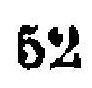52
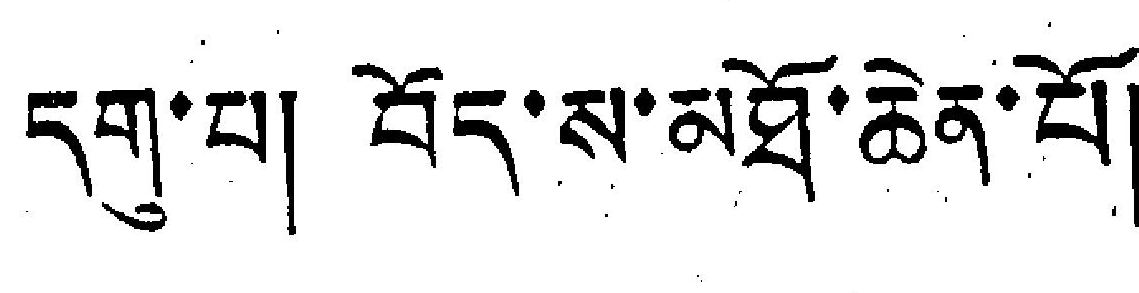དག་པ། བོད་ས་མཐོ་ཆེན་པོ།
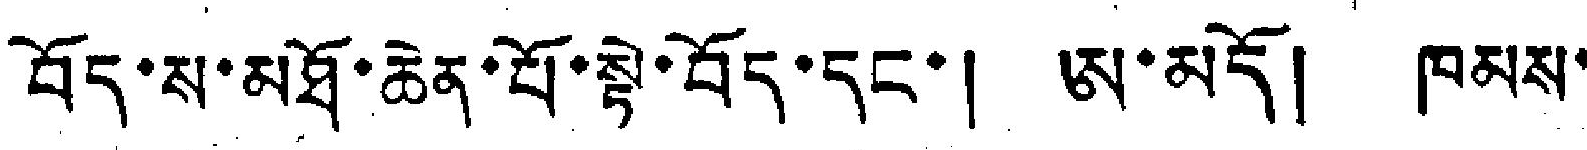བོད་ས་མཐོ་ཆེན་པོ་སྟེ་བོད་དང་། ཨ་མདོ། ཁམས་
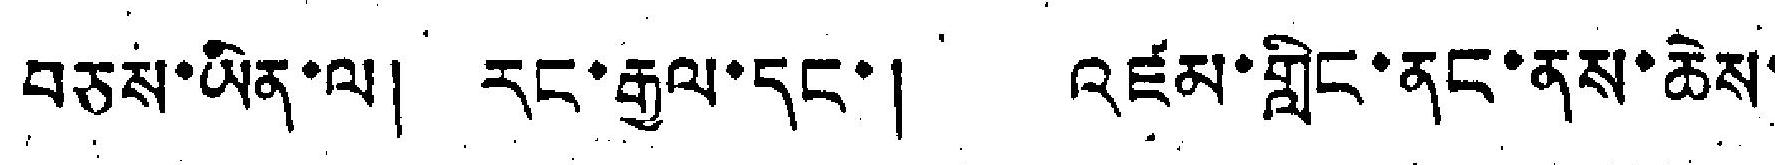བཅས་ཡིན་ལ། རང་རྒྱལ་དང་། འཛམ་གླིང་ནང་ནས་ཆེས་
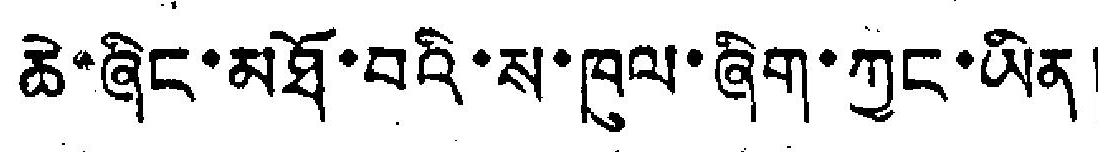ཆེ་ཞིང་མཐོ་བའི་ས་ཁུལ་ཞིག་ཀྱང་ཡིན།
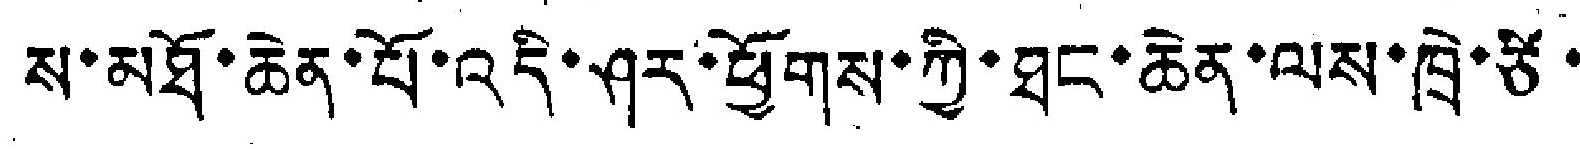ས་མཐོ་ཆེན་པོ་འདི་ཤར་ཕྱོགས་ཀྱི་ཐང་ཆེན་ལས་ཁྲེ་ཙི་
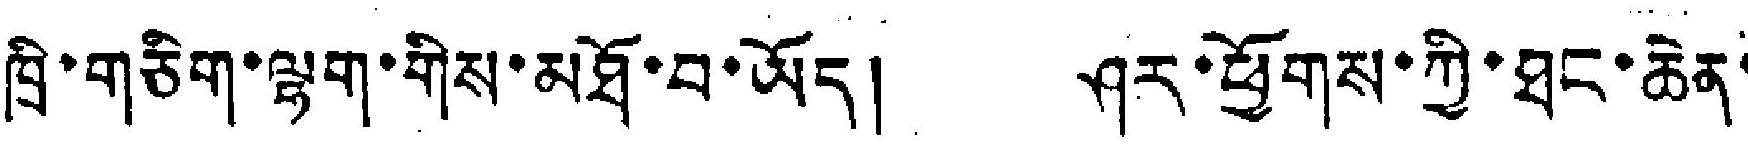ཁྲི་གཅིག་ལྷག་གིས་མཐོ་བ་ཡོད། ཤར་ཕྱོགས་ཀྱི་ཐང་ཆེན་
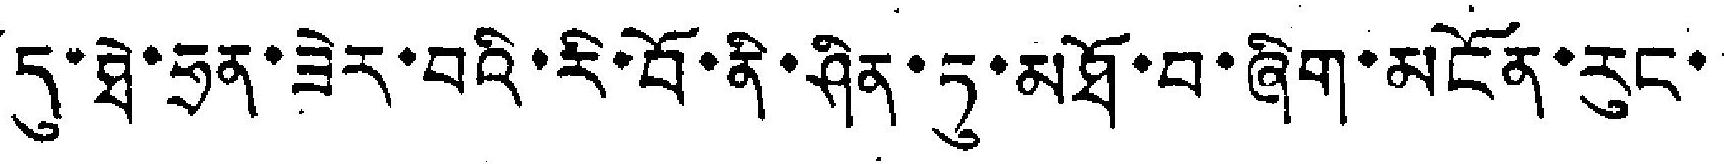དུ་ཐེ་ཧྲན་ཟེར་བའི་རི་བོ་ནི་ཤིན་ཏུ་མཐོ་བ་ཞིག་མངོན་རུང་།
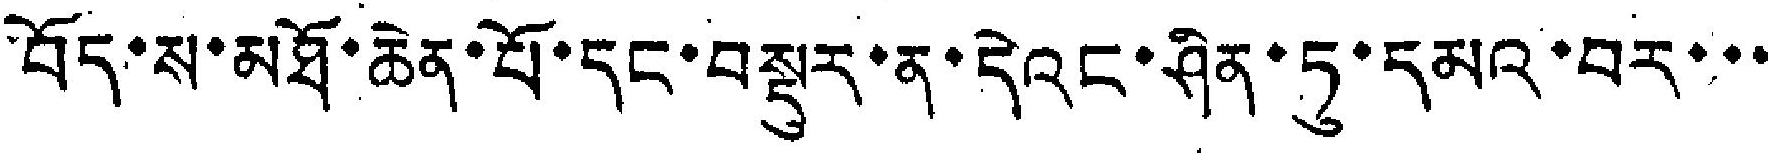བོད་ས་མཐོ་ཆེན་པོ་དང་བསྡུར་ན་དེའང་ཤིན་ཏུ་དམའ་བར་་་
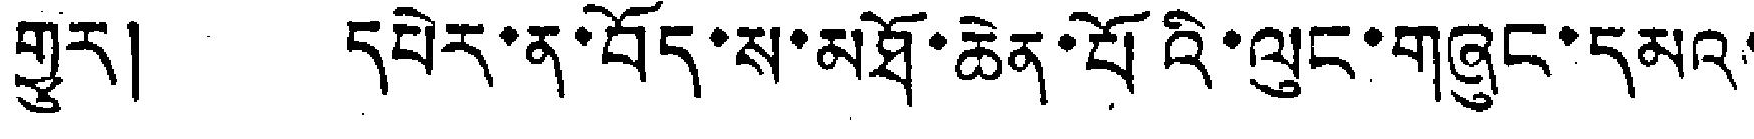གྱུར། དཔེར་ན་བོད་ས་མཐོ་ཆེན་པོའི་ལུང་གཞུང་དམའ་
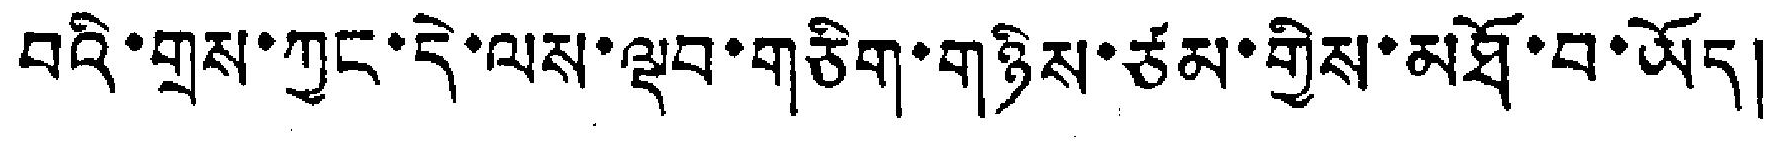བའི་གྲས་ཀྱང་དེ་ལས་ལྡབ་གཅིག་གཉིས་ཙམ་གྱིས་མཐོ་བ་ཡོད།
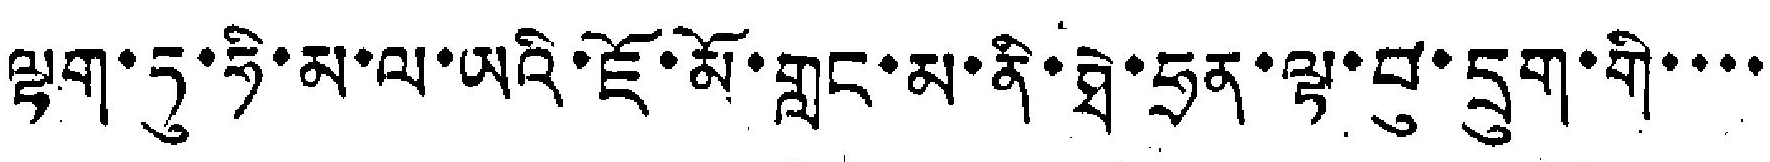ལྟག་ཏུ་ཧི་མ་ལ་ཡའི་ཇོ་མོ་གླང་མ་ནི་ཐེ་ཧྲན་ལྟ་བུ་དྲུག་གི་་་་
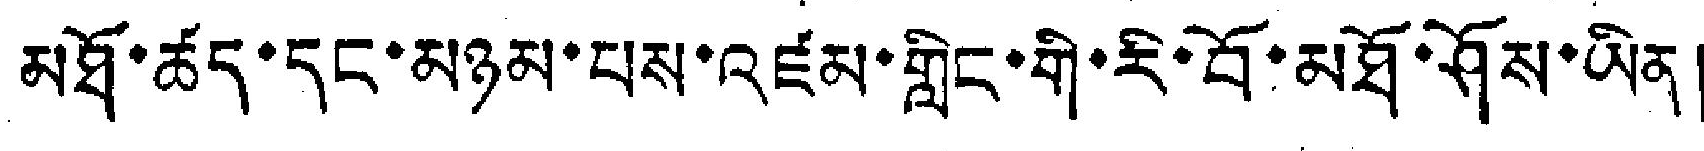མཐོ་ཚད་དང་མཉམ་པས་འཛམ་གླིང་གི་རི་བོ་མཐོ་ཤོས་ཡིན།
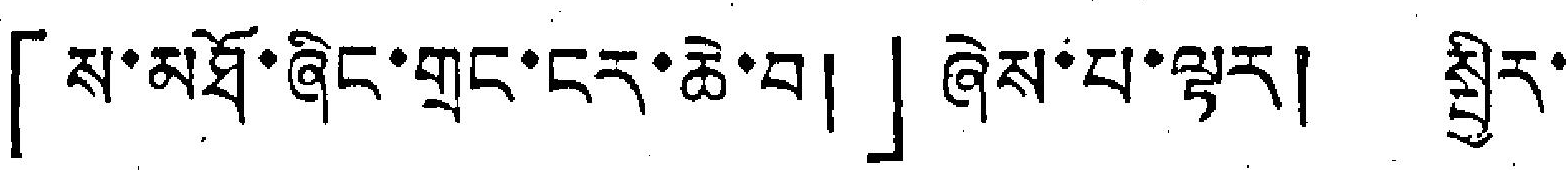「ས་མཐོ་ཞིང་གྲང་ངར་ཆེ་བ།」ཞེས་པ་ལྟར། སྤྱིར་
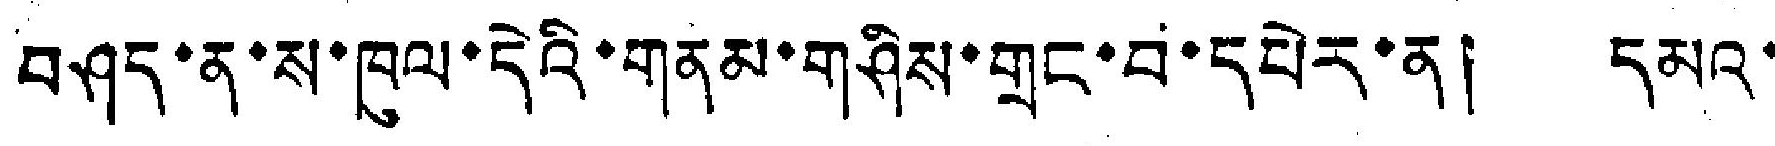བཤད་ན་ས་ཁུལ་དེའི་གནམ་གཤིས་གྲང་བ་དཔེར་ན། དམའ་
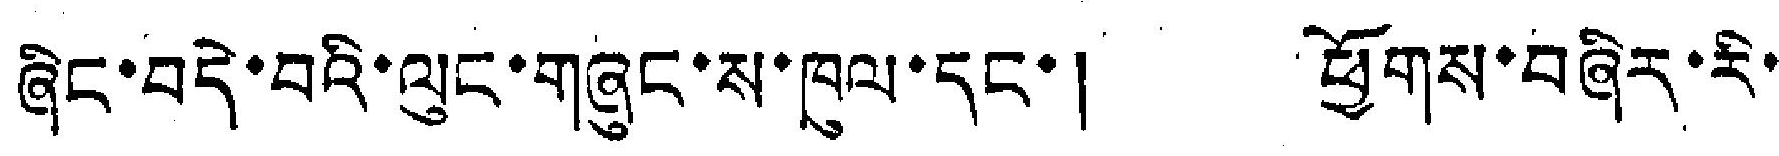ཞིང་བདེ་བའི་ལུང་གཞུང་ས་ཁུལ་དང་། ཕྱོགས་བཞིར་རི་
